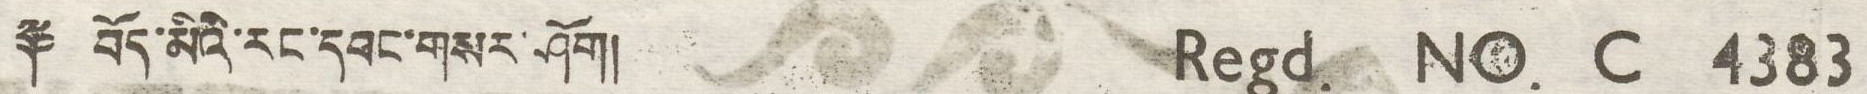༈ བོད་མིའི་རང་དབམག་གསར་ཤོག། Regd. NO. C 4383
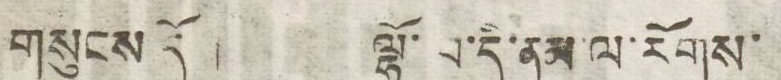གསུངས་དོན། ལྷོ་བི་་དི་ནམ་ལ་རོགས་
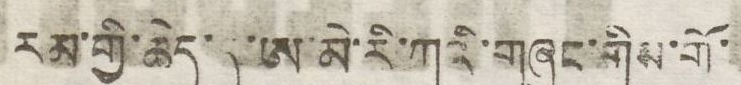རམ་གྱི་ཆེད་དུ་ཨ་མེ་རི་ཀའི་གཞུང་གིས་གོ་
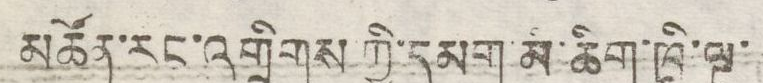མཚོན་རང་འགྲིགས་ཀྱི་དམག་མི་ཆིག་ཁྲི་ལྔ་
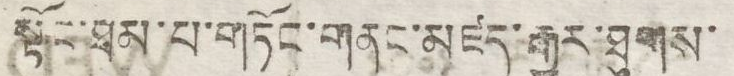སྟོང་ཐམ་པ་གཏོང་གནང་མཛད་རྒྱུར་ཐུགས་
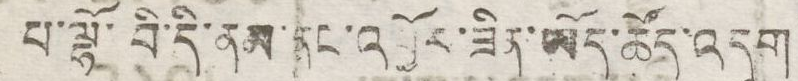པ་ལྷོ་བི་དི་ནམ་ནང་འབྱོར་ཟིན་ཡོད་ཚོད་འདུག
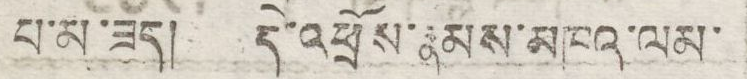པ་མ་ཟད། དེ་འཕྲོས་རྣམས་མཁའ་ལམ་
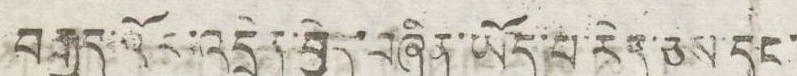བརྒྱུད་འོང་འདྲེན་བྱེད་བཞིན་ཡོད་པ་རེད་ཅེས་དང་
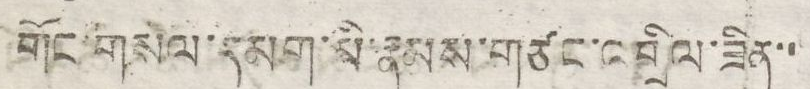གོང་གསལ་དམག་མི་རྣམས་གཙང་འགྲིལ་ཟིན་་
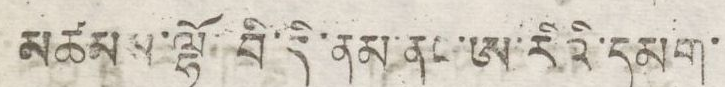མཚམས་ལྷོ་བི་དི་ནམ་ནང་ཨ་རིའི་དམག་
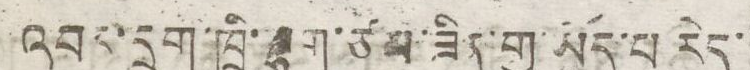འབར་དྲུག་ཁྲི་ལྷག་ཙམ་ཟིན་གྱི་ཡོད་པ་རེད་
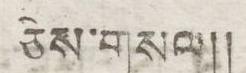ཅེས་གསལ༎
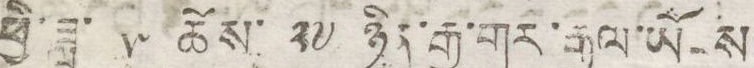ཕྱི་ཟླ་ ༥ ཚེས་ ༢༧ ཉིན་རྒྱ་གར་ཡོངས་
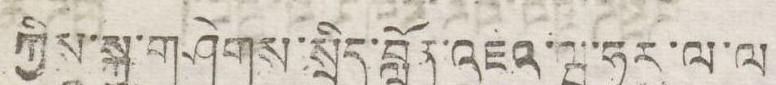ཀྱིས་སྐུ་གཤེགས་སྲིད་བློན་འཇའ་ཝ་ཧཱར་ལཱ་ལ་
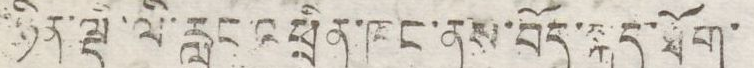ཉིན་ལྡི་ལི་རླུང་འཕྲིན་ཁང་ནས་བོད་སྐད་ཐོག་
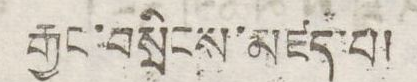རྒྱང་བསྲིངས་མཛད་པ།
